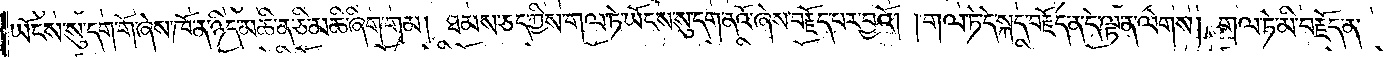ཡོངས་སུ་དག་གོ་ཞེས་ཁོ་ན་ཉིད་མཆི་ན་ཅི་མཆི་ཞིག་གམ། ཐམས་ཅད་ཀྱིས་གལ་ཏེ་ཡོངས་སུ་དག་ནའོ་ཞེས་བརྗོད་པར་བྱའོ། །གལ་ཏེ་དེ་སྐད་བརྗོད་ན་དེ་ལྟ་ན་ལེགས། གལ་ཏེ་མི་བརྗོད་ན་
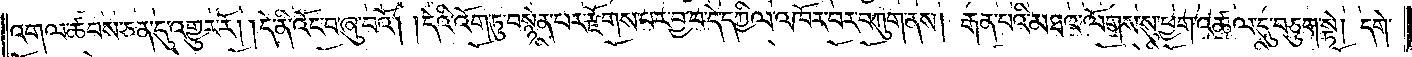འགལ་ཚབས་ཅན་དུ་འགྱུར་རོ། །དེ་ནི་འོང་བ་ཞུ་བའོ། །དེའི་འོག་ཏུ་བསྙེན་པར་རྫོགས་པར་བྱ་བ་དེ་དཀྱིལ་འཁོར་བར་བཀུག་ནས། རྒན་པའི་མཐའ་ལོགས་སུ་ཕྱག་འཚལ་དུ་བཅུག་སྟེ། དགེ་
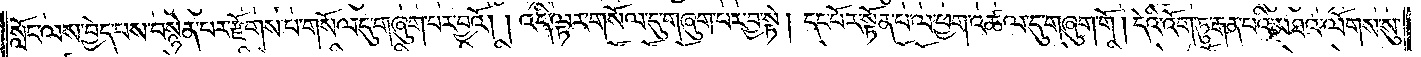སློང་ལས་བྱེད་པས་བསྙེན་པར་རྫོགས་པ་གསོལ་དུ་གཞུག་པར་བྱའོ། །འདི་ལྟར་གསོལ་དུ་གཞུག་པར་བྱ་སྟེ། དང་པོར་སྟོན་པ་ལ་ཕྱག་འཚལ་དུ་གཞུག་གོ །དེའི་འོག་ཏུ་རྒན་པའི་མཐའ་ལོགས་སུ་
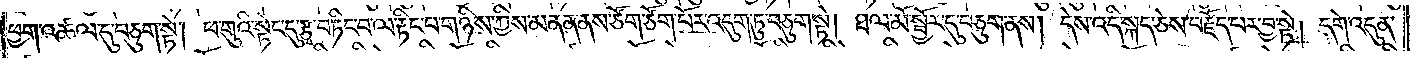ཕྱག་འཚལ་དུ་བཅུག་སྟེ། ཕ་གུའི་སྟེང་དུ་རྩྭ་བཏིང་བ་ལ་རྟིང་པ་གཉིས་ཀྱིས་མནན་ནས་ཙོག་ཙོག་པོར་འདུག་ཏུ་བཅུག་སྟེ། ཐལ་མོ་སྦྱོར་དུ་བཅུག་ནས། དེས་འདི་སྐད་ཅེས་བརྗོད་པར་བྱ་སྟེ། དགེ་འདུན་
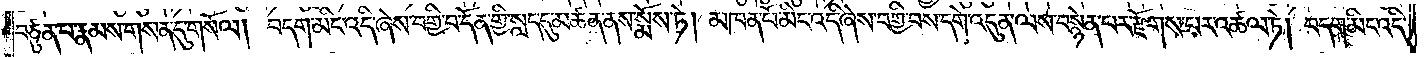བཙུན་པ་རྣམས་གསན་དུ་གསོལ། བདག་མིང་འདི་ཞེས་བགྱི་བ་དོན་གྱི་སླད་དུ་མཚན་ནས་སྨོས་ཏེ། མཁན་པོ་མིང་འདི་ཞེས་བགྱི་བས་དགེ་འདུན་ལས་བསྙེན་པར་རྫོགས་པར་འཚལ་ཏེ། བདག་མིང་འདི་
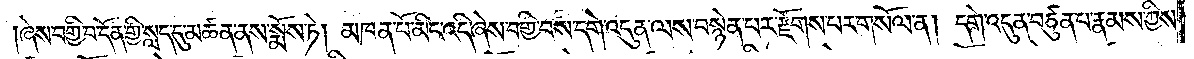ཞེས་བགྱི་བ་དོན་གྱི་སླད་དུ་མཚན་ནས་སྨོས་ཏེ། མཁན་པོ་མིང་འདི་ཞེས་བགྱི་བས་དགེ་འདུན་ལས་བསྙེན་པར་རྫོགས་པར་གསོལ་ན། དགེ་འདུན་བཙུན་པ་རྣམས་ཀྱིས་
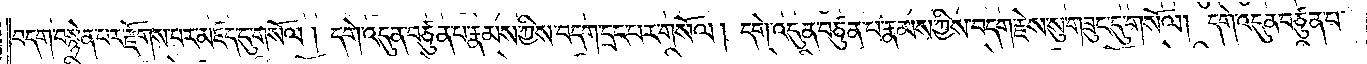བདག་བསྙེན་པར་རྫོགས་པར་མཛད་དུ་གསོལ། དགེ་འདུན་བཙུན་པ་རྣམས་ཀྱིས་བདག་དྲང་པར་གསོལ། དགེ་འདུན་བཙུན་པ་རྣམས་ཀྱིས་བདག་རྗེས་སུ་གཟུང་དུ་གསོལ། དགེ་འདུན་བཙུན་པ་
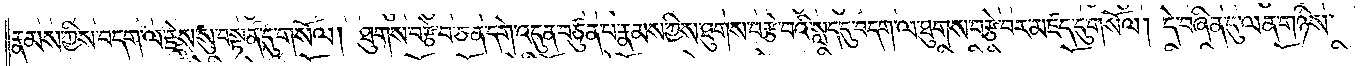རྣམས་ཀྱིས་བདག་ལ་རྗེས་སུ་བསྟན་དུ་གསོལ། ཐུགས་བརྩེ་བ་ཅན་དགེ་འདུན་བཙུན་པ་རྣམས་ཀྱིས་ཐུགས་བརྩེ་བའི་སླད་དུ་བདག་ལ་ཐུགས་བརྩེ་བར་མཛད་དུ་གསོལ། དེ་བཞིན་དུ་ལན་གཉིས་
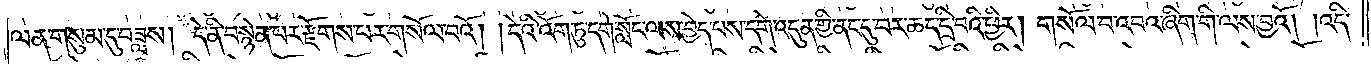ལན་གསུམ་དུ་བཟླས། དེ་ནི་བསྙེན་པར་རྫོགས་པར་གསོལ་བའོ། །དེའི་འོག་ཏུ་དགེ་སློང་ལས་བྱེད་པས་དགེ་འདུན་གྱི་ནང་དུ་བར་ཆད་དྲི་བའི་ཕྱིར། གསོལ་བ་འབའ་ཞིག་གི་ལས་བྱའོ། །འདི་
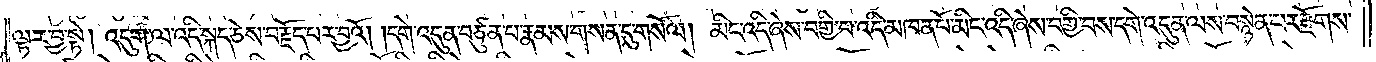ལྟར་བྱ་སྟེ། འདུག་ལ་འདི་སྐད་ཅེས་བརྗོད་པར་བྱའོ། །དགེ་འདུན་བཙུན་པ་རྣམས་གསན་དུ་གསོལ། མིང་འདི་ཞེས་བགྱི་བ་འདི་མཁན་པོ་མིང་འདི་ཞེས་བགྱི་བས་དགེ་འདུན་ལས་བསྙེན་པར་རྫོགས་
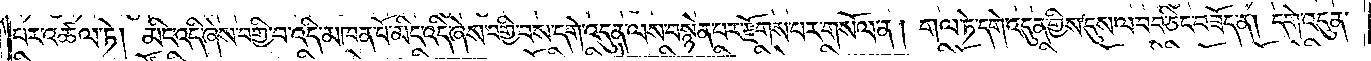པར་འཚལ་ཏེ། མིང་འདི་ཞེས་བགྱི་བ་འདི་མཁན་པོ་མིང་འདི་ཞེས་བགྱི་བས་དགེ་འདུན་ལས་བསྙེན་པར་རྫོགས་པར་གསོལ་ན། གལ་ཏེ་དགེ་འདུན་གྱིས་དུས་ལ་བབ་ཅིང་བཟོད་ན། དགེ་འདུན་
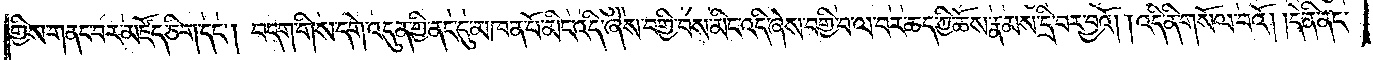གྱིས་གནང་བར་མཛོད་ཅིག་དང༌། བདག་གིས་དགེ་འདུན་གྱི་ནང་དུ་མཁན་པོ་མིང་འདི་ཞེས་བགྱི་བས་མིང་འདི་ཞེས་བགྱི་བ་ལ་བར་ཆད་ཀྱི་ཆོས་རྣམས་དྲི་བར་བྱའོ། །འདི་ནི་གསོལ་བའོ། །དེ་ནི་ནང་
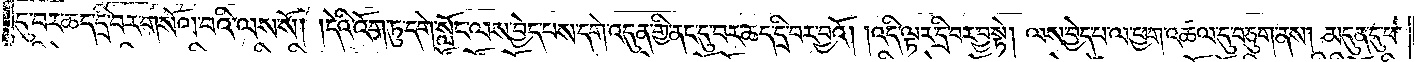དུ་བར་ཆད་དྲི་བར་གསོལ་བའི་ལས་སོ། །དེའི་འོག་ཏུ་དགེ་སློང་ལས་བྱེད་པས་དགེ་འདུན་གྱི་ནང་དུ་བར་ཆད་དྲི་བར་བྱའོ། །འདི་ལྟར་དྲི་བར་བྱ་སྟེ། ལས་བྱེད་པ་ལ་ཕྱག་འཚལ་དུ་བཅུག་ནས། མདུན་དུ་ཕ་
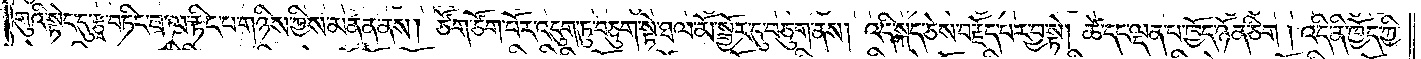གུའི་སྟེང་དུ་རྩྭ་བཏིང་བ་ལ་རྟིང་པ་གཉིས་ཀྱིས་མནན་ནས། ཙོག་ཙོག་པོར་འདུག་ཏུ་བཅུག་སྟེ་ཐལ་མོ་སྦྱོར་དུ་བཅུག་ནས། འདི་སྐད་ཅེས་བརྗོད་པར་བྱ་སྟེ། ཚེ་དང་ལྡན་པ་ཁྱོད་ཉོན་ཅིག །འདི་ནི་ཁྱོད་ཀྱི་
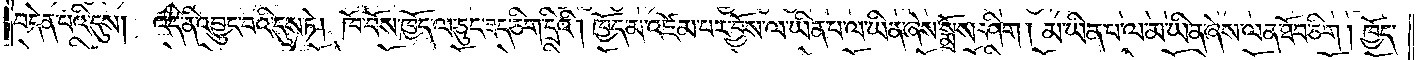བདེན་པའི་དུས། འདི་ནི་འབྱུང་བའི་དུས་ཏེ། ཁོ་བོས་ཁྱོད་ལ་ཅུང་ཟད་ཅིག་དྲིའི། ཁྱོད་མ་འཛེམ་པར་བྱོས་ལ་ཡིན་པ་ལ་ཡིན་ཞེས་སྨྲོས་ཤིག །མ་ཡིན་པ་ལ་མ་ཡིན་ཞེས་ལན་ཐོབ་ཅིག །ཁྱོད་
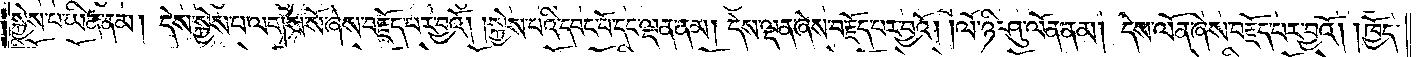སྐྱེས་པ་ཡིན་ནམ། དེས་སྐྱེས་པ་ལགས་སོ་ཞེས་བརྗོད་པར་བྱའོ། །སྐྱེས་པའི་དབང་པོ་དང་ལྡན་ནམ། དེས་ལྡན་ཞེས་བརྗོད་པར་བྱའོ། །ལོ་ཉི་ཤུ་ལོན་ནམ། དེས་ལོན་ཞེས་བརྗོད་པར་བྱའོ། །ཁྱོད་
